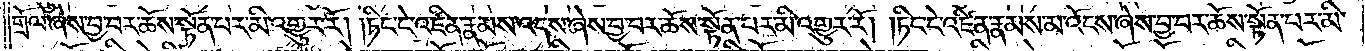གྲོལ་ཞེས་བྱ་བར་ཆོས་སྟོན་པར་མི་འགྱུར་རོ། །ཏིང་ངེ་འཛིན་རྣམས་འདས་ཞེས་བྱ་བར་ཆོས་སྟོན་པར་མི་འགྱུར་རོ། །ཏིང་ངེ་འཛིན་རྣམས་མ་འོངས་ཞེས་བྱ་བར་ཆོས་སྟོན་པར་མི་
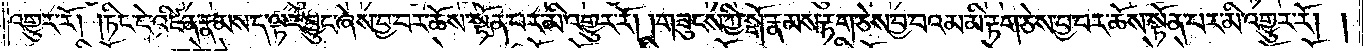འགྱུར་རོ། །ཏིང་ངེ་འཛིན་རྣམས་ད་ལྟར་བྱུང་ཞེས་བྱ་བར་ཆོས་སྟོན་པར་མི་འགྱུར་རོ། །གཟུངས་ཀྱི་སྒོ་རྣམས་རྟག་ཅེས་བྱ་བའམ་མི་རྟག་ཅེས་བྱ་བར་ཆོས་སྟོན་པར་མི་འགྱུར་རོ། །
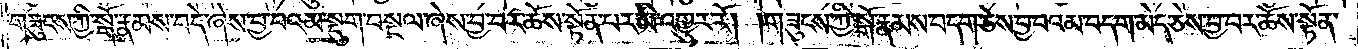གཟུངས་ཀྱི་སྒོ་རྣམས་བདེ་ཞེས་བྱ་བའམ་སྡུག་བསྔལ་ཞེས་བྱ་བར་ཆོས་སྟོན་པར་མི་འགྱུར་རོ། །གཟུངས་ཀྱི་སྒོ་རྣམས་བདག་ཅེས་བྱ་བའམ་བདག་མེད་ཅེས་བྱ་བར་ཆོས་སྟོན་
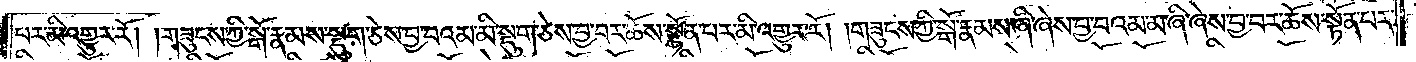པར་མི་འགྱུར་རོ། །གཟུངས་ཀྱི་སྒོ་རྣམས་སྡུག་ཅེས་བྱ་བའམ་མི་སྡུག་ཅེས་བྱ་བར་ཆོས་སྟོན་པར་མི་འགྱུར་རོ། །གཟུངས་ཀྱི་སྒོ་རྣམས་ཞི་ཞེས་བྱ་བའམ་མ་ཞི་ཞེས་བྱ་བར་ཆོས་སྟོན་པར་
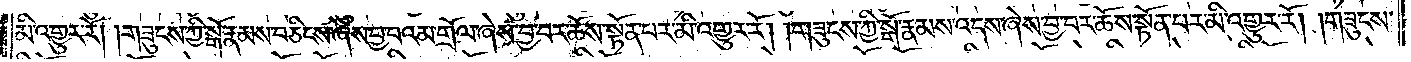མི་འགྱུར་རོ། །གཟུངས་ཀྱི་སྒོ་རྣམས་བཅིངས་ཞེས་བྱ་བའམ་གྲོལ་ཞེས་བྱ་བར་ཆོས་སྟོན་པར་མི་འགྱུར་རོ། །གཟུངས་ཀྱི་སྒོ་རྣམས་འདས་ཞེས་བྱ་བར་ཆོས་སྟོན་པར་མི་འགྱུར་རོ། །གཟུངས་
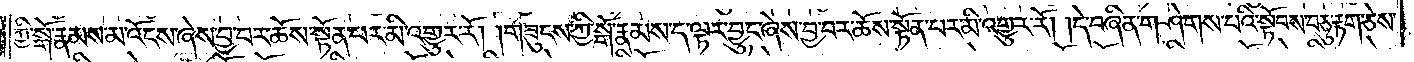ཀྱི་སྒོ་རྣམས་མ་འོངས་ཞེས་བྱ་བར་ཆོས་སྟོན་པར་མི་འགྱུར་རོ། །གཟུངས་ཀྱི་སྒོ་རྣམས་ད་ལྟར་བྱུང་ཞེས་བྱ་བར་ཆོས་སྟོན་པར་མི་འགྱུར་རོ། །དེ་བཞིན་གཤེགས་པའི་སྟོབས་བཅུ་རྟག་ཅེས་
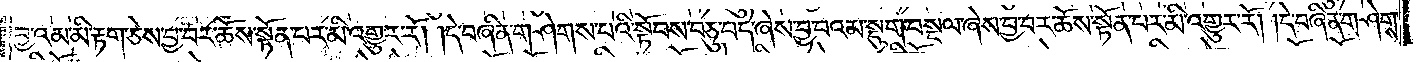བྱ་བའམ་མི་རྟག་ཅེས་བྱ་བར་ཆོས་སྟོན་པར་མི་འགྱུར་རོ། །དེ་བཞིན་གཤེགས་པའི་སྟོབས་བཅུ་བདེ་ཞེས་བྱ་བའམ་སྡུག་བསྔལ་ཞེས་བྱ་བར་ཆོས་སྟོན་པར་མི་འགྱུར་རོ། །དེ་བཞིན་གཤེགས་
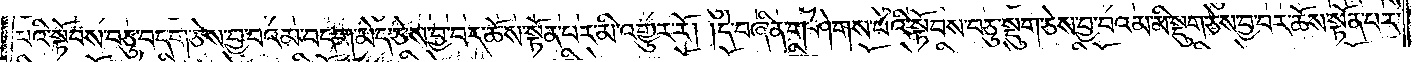པའི་སྟོབས་བཅུ་བདག་ཅེས་བྱ་བའམ་བདག་མེད་ཅེས་བྱ་བར་ཆོས་སྟོན་པར་མི་འགྱུར་རོ། །དེ་བཞིན་གཤེགས་པའི་སྟོབས་བཅུ་སྡུག་ཅེས་བྱ་བའམ་མི་སྡུག་ཅེས་བྱ་བར་ཆོས་སྟོན་པར་
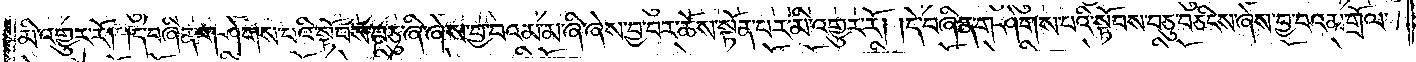མི་འགྱུར་རོ། །དེ་བཞིན་གཤེགས་བའི་སྟོབས་བཅུ་ཞི་ཞེས་བྱ་བའམ་མ་ཞི་ཞེས་བྱ་བར་ཆོས་སྟོན་པར་མི་འགྱུར་རོ། །དེ་བཞིན་གཤེགས་པའི་སྟོབས་བཅུ་བཅིངས་ཞེས་བྱ་བའམ་གྲོལ་
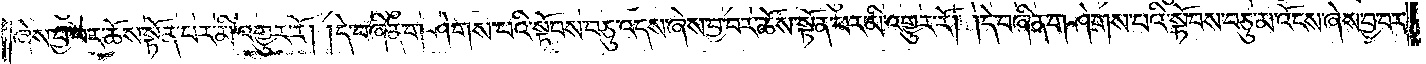ཞེས་བྱ་བར་ཆོས་སྟོན་པར་མི་འགྱུར་རོ། །དེ་བཞིན་གཤེགས་པའི་སྟོབས་བཅུ་འདས་ཞེས་བྱ་བར་ཆོས་སྟོན་པར་མི་འགྱུར་རོ། །དེ་བཞིན་གཤེགས་པའི་སྟོབས་བཅུ་མ་འོངས་ཞེས་བྱ་བར་
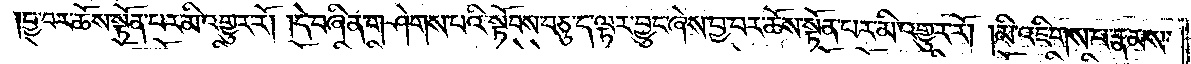བྱ་བར་ཆོས་སྟོན་པར་མི་འགྱུར་རོ། །དེ་བཞིན་གཤེགས་པའི་སྟོབས་བཅུ་ད་ལྟར་བྱུང་ཞེས་བྱ་བར་ཆོས་སྟོན་པར་མི་འགྱུར་རོ། །མི་འཇིགས་པ་རྣམས་
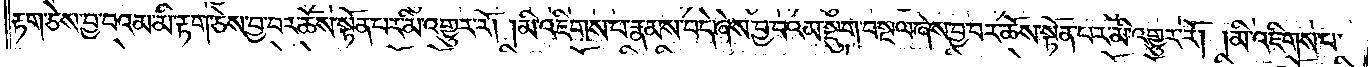རྟག་ཅེས་བྱ་བའམ་མི་རྟག་ཅེས་བྱ་བར་ཆོས་སྟོན་པར་མི་འགྱུར་རོ། །མི་འཇིགས་པ་རྣམས་བདེ་ཞེས་བྱ་བའམ་སྡུག་བསྔལ་ཞེས་བྱ་བར་ཆོས་སྟོན་པར་མི་འགྱུར་རོ། །མི་འཇིགས་པ་
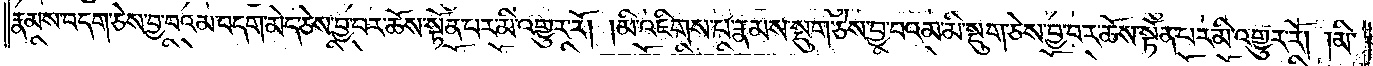རྣམས་བདག་ཅེས་བྱ་བའམ་བདག་མེད་ཅེས་བྱ་བར་ཆོས་སྟོན་པར་མི་འགྱུར་རོ། །མི་འཇིགས་པ་རྣམས་སྡུག་ཅེས་བྱ་བའམ་མི་སྡུག་ཅེས་བྱ་བར་ཆོས་སྟོན་པར་མི་འགྱུར་རོ། །མི་
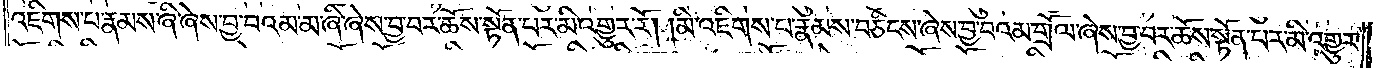འཇིགས་པ་རྣམས་ཞི་ཞེས་བྱ་བའམ་མ་ཞི་ཞེས་བྱ་བར་ཆོས་སྟོན་པར་མི་འགྱུར་རོ། །མི་འཇིགས་པ་རྣམས་བཅིངས་ཞེས་བྱ་བའམ་གྲོལ་ཞེས་བྱ་བར་ཆོས་སྟོན་པར་མི་འགྱུར་
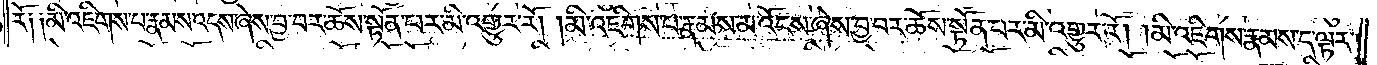རོ༑ ༑མི་འཇིགས་པ་རྣམས་འདས་ཞེས་བྱ་བར་ཆོས་སྟོན་པར་མི་འགྱུར་རོ། །མི་འཇིགས་པ་རྣམས་མ་འོངས་ཞེས་བྱ་བར་ཆོས་སྟོན་པར་མི་འགྱུར་རོ། །མི་འཇིགས་པ་རྣམས་ད་ལྟར་
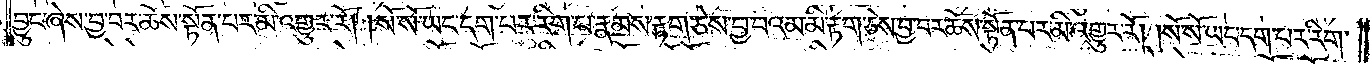བྱུང་ཞེས་བྱ་བར་ཆོས་སྟོན་པར་མི་འགྱུར་རོ། །སོ་སོ་ཡང་དག་པར་རིག་པ་རྣམས་རྟག་ཅེས་བྱ་བའམ་མི་རྟག་ཅེས་བྱ་བར་ཆོས་སྟོན་པར་མི་འགྱུར་རོ། །སོ་སོ་ཡང་དག་པར་རིག་
